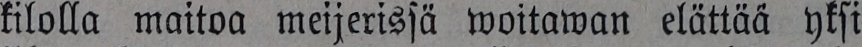kilolla maitoa meijerissä woitawan elättää yksi
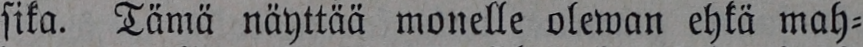sika. Tämä näyttää monelle olewan ehkä mah-
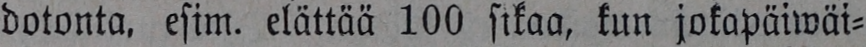dotonta, esim. elättää 100 sikaa, kun jokapäiwäi-
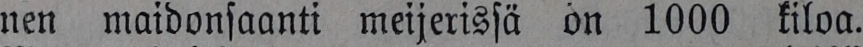nen maidonsaanti meijerissä on 1000 kiloa.
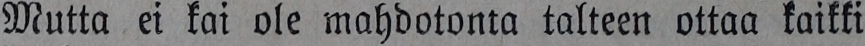Mutta ei kai ole mahdotonta talteen ottaa kaikki
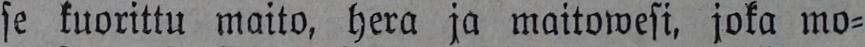se kuorittu maito, hera ja maitowesi, joka mo-
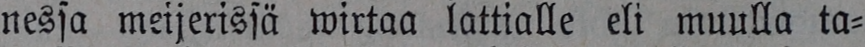nessa meijerissä wirtaa lattialle eli muulla ta-
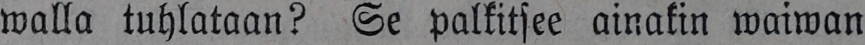walla tuhlataan? Se palkitsee ainakin waiwan
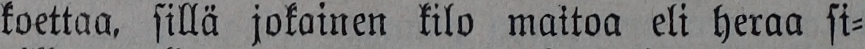koettaa, sillä jokainen kilo maitoa eli heraa si-
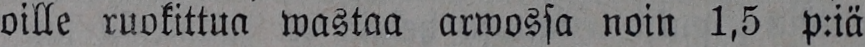oille ruokittua wastaa arwossa noin 1,5 p:iä
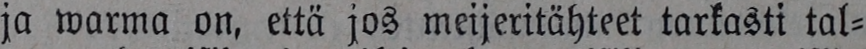ja warma on, että jos meijeritähteet tarkasti tal-
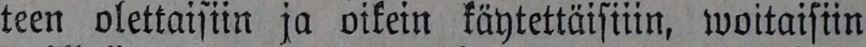teen oiettaisiin ja oikein käytettäisiiin, woitaisiin
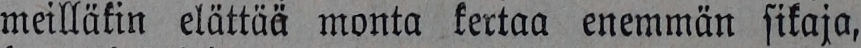meilläkin elättää monta kertaa enemmän sikaja,
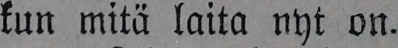kun mitä laita nyt on.
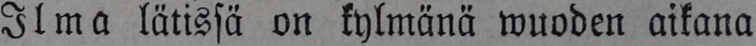Ilma lätissä on kylmänä wuoden aikana
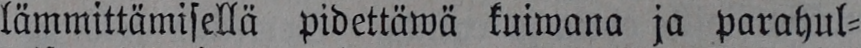lämmittämisellä pidettäwä kuiwana ja parahul-
